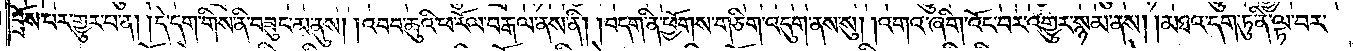བྲོས་པར་གྱུར་པ་ན། །དེ་དག་གིས་ནི་བཟུང་མ་ནུས། །འབབ་ཆུའི་ཕ་རོལ་བརྒལ་ནས་ནི། །བདག་ནི་ཕྱོགས་གཅིག་འདུག་ནས་སུ། །འགའ་ཞིག་འོང་བར་འགྱུར་སྙམ་ནས། །མཐའ་དག་ཏུ་ནི་ལྟ་བར་
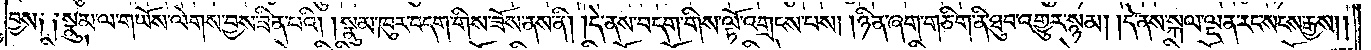བྱས༑ ༑སྣུམ་ལ་གཡོས་ལེགས་བྱས་ཟིན་པའི། །སྣུམ་ཁུར་བདག་གིས་ཟོས་ནས་ནི། །དེ་ནས་བདག་གིས་ལྟོ་འགྲངས་པས། །ཉིན་ཞག་གཅིག་ནི་ཐུབ་འགྱུར་སྙམ། །དེ་ནས་སྐལ་ལྡན་རང་སངས་རྒྱས༎
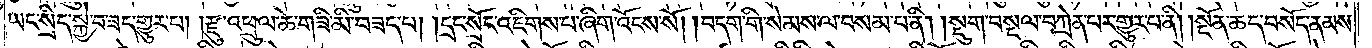ཡང་སྲིད་སྐྱེ་བ་ཟད་གྱུར་པ། །རྫུ་འཕྲུལ་ཆེ་གཟི་མི་བཟད་པ། །དྲང་སྲོང་འཇིགས་པ་ཞིག་འོངས་སོ། །བདག་གི་སེམས་ལ་བསམ་པ་ནི། །སྡུག་བསྔལ་བཀྲེན་པར་གྱུར་པ་ནི། །སྔོན་ཆད་བསོད་ནམས་
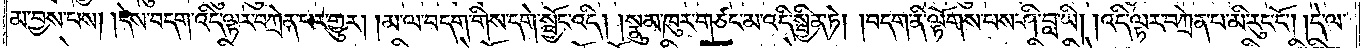མ་བྱས་པས། །དེས་བདག་འདི་ལྟར་བཀྲེན་པར་གྱུར། །མ་ལ་བདག་གིས་དགེ་སྦྱོང་འདི། །སྣུམ་ཁུར་གཙང་མ་འདི་སྦྱིན་ཏེ། །བདག་ནི་ལྟོགས་པས་ཤི་བླ་ཡི། །འདི་ལྟར་བཀྲེན་པ་མི་རུང་ངོ༌། །དེ་ལ་
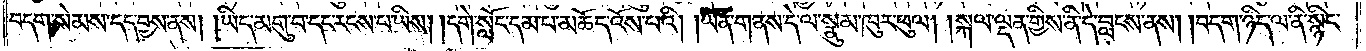བདག་སེམས་དད་བྱས་ནས། །ཡིད་མགུ་བ་དང་རངས་པ་ཡིས། །དགེ་སློང་དམ་པ་མཆོད་འོས་པའི། །ཡོན་གནས་དེ་ལ་སྣུམ་ཁུར་ཕུལ། །སྐལ་ལྡན་གྱིས་ནི་དེ་བླངས་ནས། །བདག་ཉིད་ལ་ནི་སྙིང་
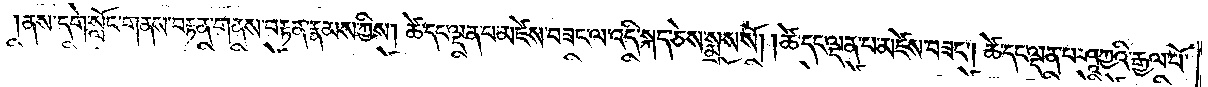ནས་དགེ་སློང་གནས་བརྟན་གནས་བརྟན་རྣམས་ཀྱིས། ཚེ་དང་ལྡན་པ་མཛེས་བཟང་ལ་འདི་སྐད་ཅེས་སྨྲས་སོ། །ཚེ་དང་ལྡན་པ་མཛེས་བཟང༌། ཚེ་དང་ལྡན་པ་ཤཱཀྱའི་རྒྱལ་པོ་
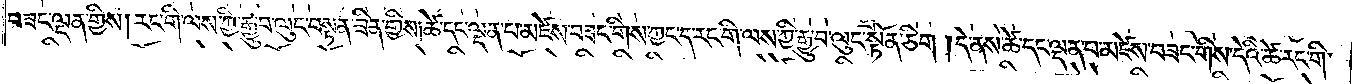བཟང་ལྡན་གྱིས། རང་གི་ལས་ཀྱི་རྒྱུ་བ་ལུང་བསྟན་ཟིན་གྱིས།ཚེ་དང་ལྡན་པ་མཛེས་བཟང་གིས་ཀྱང་ད་རང་གི་ལས་ཀྱི་རྒྱུ་བ་ལུང་སྟོན་ཅིག །དེ་ནས་ཚེ་དང་ལྡན་པ་མཛེས་བཟང་གིས་དེའི་ཚེ་རང་གི་
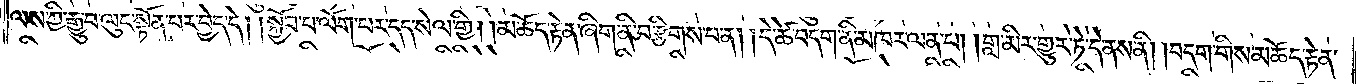ལས་ཀྱི་རྒྱུ་བ་ལུང་སྟོན་པར་བྱེད་དེ། །སྐྱོབ་པ་ལོག་པར་དད་སེལ་གྱི། །མཆོད་རྟེན་ཞིག་ནི་བརྩིགས་པ་ན། །དེ་ཚེ་བདག་ནི་མཁར་ལན་པ། །གླ་མིར་གྱུར་ཏེ་དེ་ནས་ནི། །བདག་གིས་མཆོད་རྟེན་
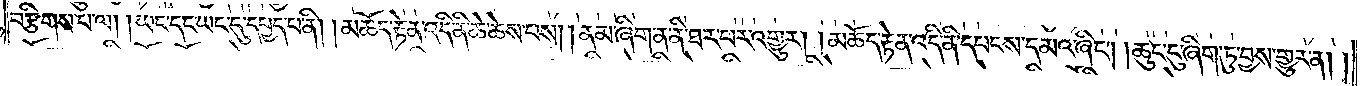བརྩིགས་པ་ལ། །ཡང་དང་ཡང་དུ་དཔྱད་པ་ནི། །མཆོད་རྟེན་འདི་ནི་ཆེ་ཆེས་པས། །ནམ་ཞིག་ན་ནི་ཐར་པར་འགྱུར། །མཆོད་རྟེན་འདི་ནི་དཔངས་དམའ་ཞིང༌། །ཆུང་ངུ་ཞིག་ཏུ་བྱས་གྱུར་ན། །
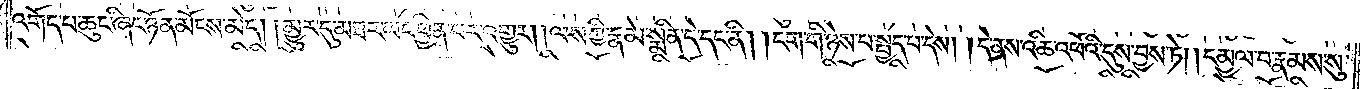འགོད་པ་ཆུང་ཞིང་ཉོན་མོངས་མེད། །མྱུར་དུ་མཐར་ཡང་ཕྱིན་པར་འགྱུར། །ལས་ཀྱི་རྣམ་སྨིན་དེ་དང་ནི། །ངག་གི་ཉེས་པ་སྤྱད་པ་དེས། །དེ་ནས་འཆི་འཕོའི་དུས་བྱས་ཏེ། །དམྱལ་བ་རྣམས་སུ་
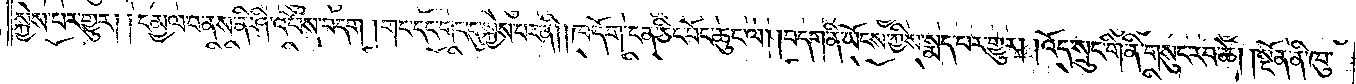སྐྱེས་པར་གྱུར། །དམྱལ་བ་ནས་ནི་ཤི་འཕོས་བདག །གང་དང་གང་དུ་སྐྱེས་པར་ནི། །ཁ་དོག་ངན་ཅིང་བོང་ཆུང་ལ། །བདག་ནི་ཡོངས་ཀྱིས་སྨད་པར་གྱུར། །འོད་སྲུང་གི་ནི་གསུང་རབ་ཆེ། །སྔོན་ནི་ཁུ་
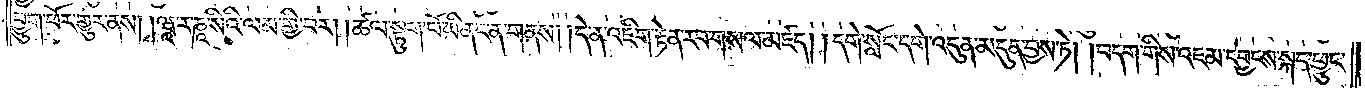བྱུག་ཕོར་གྱུར་ནས། །ཝཱ་ར་ཎཱ་སིའི་ལམ་གྱི་བར། །ཚལ་སྟུག་པོ་ཡི་ནང་ན་གནས། །དེ་ན་འཇིག་རྟེན་རབ་གསལ་མཛད། །དགེ་སློང་དགེ་འདུན་མདུན་བྱས་ཏེ། །བདག་གིས་འཇམ་དབྱངས་སྐད་ཕྱུང་
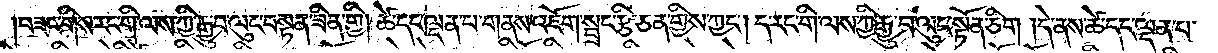བཟང་གིས་རང་གི་ལས་ཀྱི་རྒྱུ་བ་ལུང་བསྟན་ཟིན་གྱི། ཚེ་དང་ལྡན་པ་གནས་འཇོག་སྦྲང་རྩི་ཅན་གྱིས་ཀྱང༌། ད་རང་གི་ལས་ཀྱི་རྒྱུ་བ་ལུང་སྟོན་ཅིག །དེ་ནས་ཚེ་དང་ལྡན་པ་
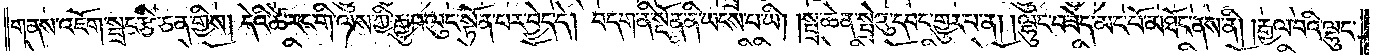གནས་འཇོག་སྦྲང་རྩི་ཅན་གྱིས། དེའི་ཚེ་རང་གི་ལས་ཀྱི་རྒྱུ་བ་ལུང་སྟོན་པར་བྱེད་དེ། བདག་ནི་སྔོན་ནི་ཡངས་པ་ཡི། །སྤྲ་ཆེན་སྤྲེའུ་དབང་གྱུར་པ་ན། །ལྷུང་བཟེད་མང་པོ་མཐོང་ནས་ནི། །རྒྱལ་བའི་ལྷུང་
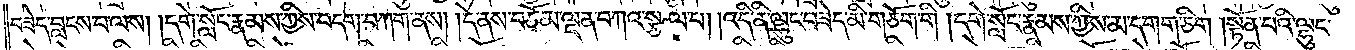བཟེད་བླངས་པ་ལས། །དགེ་སློང་རྣམས་ཀྱིས་བདག་བཀག་ནས། །དེ་ནས་བཅོམ་ལྡན་བཀའ་སྩལ་པ། །འདི་ནི་ལྷུང་བཟེད་མི་གཅོག་གི །དགེ་སློང་རྣམས་ཀྱིས་མ་དགག་ཅིག །སྟོན་པའི་ལྷུང་
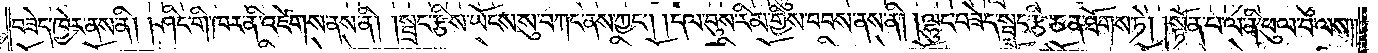བཟེད་ཁྱེར་ནས་ནི། །ཤིང་གི་ཁར་ནི་འཛེགས་ནས་ནི། །སྦྲང་རྩིས་ཡོངས་སུ་བཀང་ནས་ཀྱང༌། །དལ་བུས་རིམ་གྱིས་བབས་ནས་ནི། །ལྷུང་བཟེད་སྦྲང་རྩི་ཅན་ཐོགས་ཏེ། །སྟོན་པ་ལ་ནི་ཕུལ་བ་ལས༎
